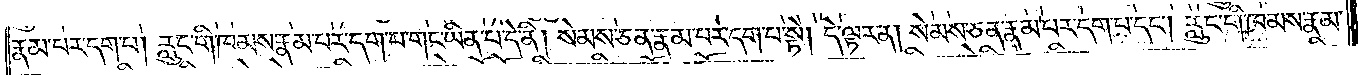རྣམ་པར་དག་པ། རླུང་གི་ཁམས་རྣམ་པར་དག་པ་གང་ཡིན་པ་དེ་ནི། སེམས་ཅན་རྣམ་པར་དག་པ་སྟེ། དེ་ལྟར་ན། སེམས་ཅན་རྣམ་པར་དག་པ་དང༌། རླུང་གི་ཁམས་རྣམ་
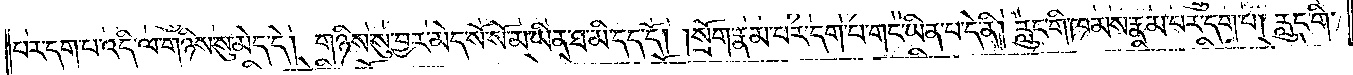པར་དག་པ་འདི་ལ་གཉིས་སུ་མེད་དེ། གཉིས་སུ་བྱར་མེད་སོ་སོ་མ་ཡིན་ཐ་མི་དད་དོ། །སྲོག་རྣམ་པར་དག་པ་གང་ཡིན་པ་དེ་ནི། རླུང་གི་ཁམས་རྣམ་པར་དག་པ། རླུང་གི་
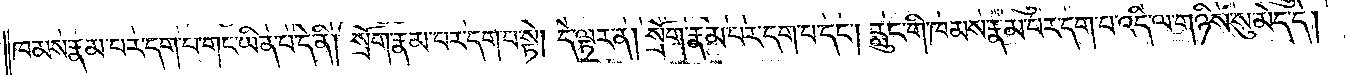ཁམས་རྣམ་པར་དག་པ་གང་ཡིན་པ་དེ་ནི། སྲོག་རྣམ་པར་དག་པ་སྟེ། དེ་ལྟར་ན། སྲོག་རྣམ་པར་དག་པ་དང༌། རླུང་གི་ཁམས་རྣམ་པར་དག་པ་འདི་ལ་གཉིས་སུ་མེད་དེ།
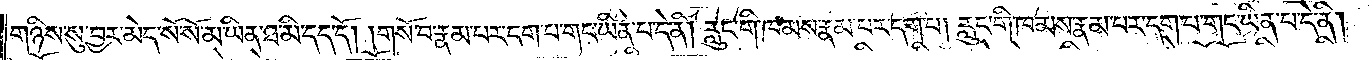གཉིས་སུ་བྱར་མེད་སོ་སོ་མ་ཡིན་ཐ་མི་དད་དོ། །གསོ་བ་རྣམ་པར་དག་པ་གང་ཡིན་པ་དེ་ནི། རླུང་གི་ཁམས་རྣམ་པར་དག་པ། རླུང་གི་ཁམས་རྣམ་པར་དག་པ་གང་ཡིན་པ་དེ་ནི།
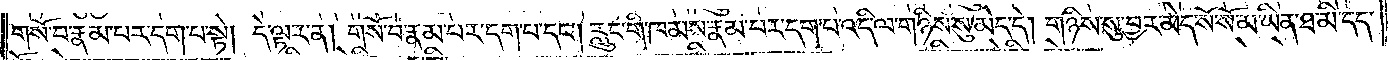གསོ་བ་རྣམ་པར་དག་པ་སྟེ། དེ་ལྟར་ན། གསོ་བ་རྣམ་པར་དག་པ་དང༌། རླུང་གི་ཁམས་རྣམ་པར་དག་པ་འདི་ལ་གཉིས་སུ་མེད་དེ། གཉིས་སུ་བྱར་མེད་སོ་སོ་མ་ཡིན་ཐ་མི་དད་
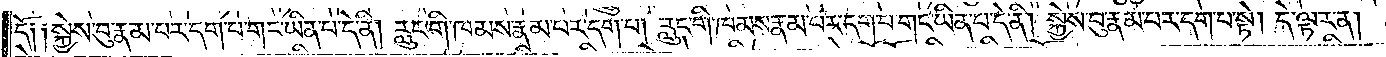དོ༑ ༑སྐྱེས་བུ་རྣམ་པར་དག་པ་གང་ཡིན་པ་དེ་ནི། རླུང་གི་ཁམས་རྣམ་པར་དག་པ། རླུང་གི་ཁམས་རྣམ་པར་དག་པ་གང་ཡིན་པ་དེ་ནི། སྐྱེས་བུ་རྣམ་པར་དག་པ་སྟེ། དེ་ལྟར་ན།
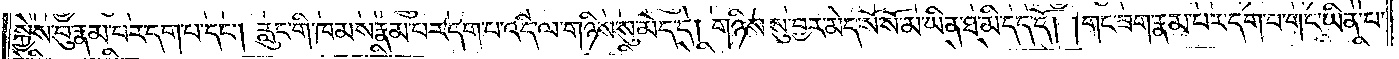སྐྱེས་བུ་རྣམ་པར་དག་པ་དང༌། རླུང་གི་ཁམས་རྣམ་པར་དག་པ་འདི་ལ་གཉིས་སུ་མེད་དེ། གཉིས་སུ་བྱར་མེད་སོ་སོ་མ་ཡིན་ཐ་མི་དད་དོ། །གང་ཟག་རྣམ་པར་དག་པ་གང་ཡིན་པ་
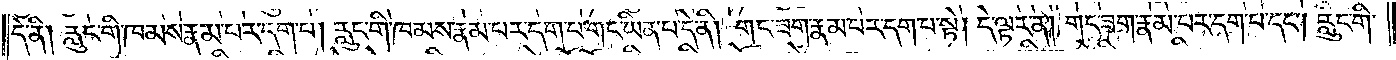དེ་ནི། རླུང་གི་ཁམས་རྣམ་པར་དག་པ། རླུང་གི་ཁམས་རྣམ་པར་དག་པ་གང་ཡིན་པ་དེ་ནི། གང་ཟག་རྣམ་པར་དག་པ་སྟེ། དེ་ལྟར་ན། གང་ཟག་རྣམ་པར་དག་པ་དང༌། རླུང་གི་
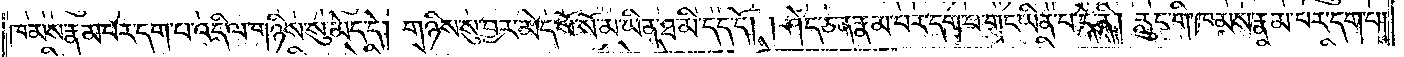ཁམས་རྣམ་པར་དག་པ་འདི་ལ་གཉིས་སུ་མེད་དེ། གཉིས་སུ་བྱར་མེད་སོ་སོ་མ་ཡིན་ཐ་མི་དད་དོ། །ཤེད་ཅན་རྣམ་པར་དག་པ་གང་ཡིན་པ་དེ་ནི། རླུང་གི་ཁམས་རྣམ་པར་དག་པ།
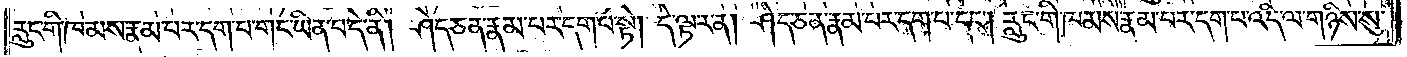རླུང་གི་ཁམས་རྣམ་པར་དག་པ་གང་ཡིན་པ་དེ་ནི། ཤེད་ཅན་རྣམ་པར་དག་པ་སྟེ། དེ་ལྟར་ན། ཤེད་ཅན་རྣམ་པར་དག་པ་དང༌། རླུང་གི་ཁམས་རྣམ་པར་དག་པ་འདི་ལ་གཉིས་སུ་
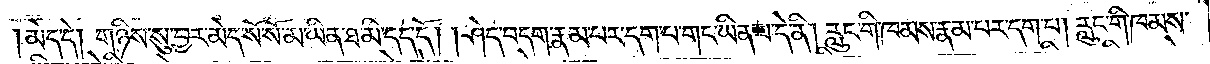མེད་དེ་གཉིས་སུ་བྱར་མེད་སོ་སོ་མ་ཡིན་ཐ་མི་དད་དོ། །ཤེད་བདག་རྣམ་པར་དག་པ་གང་ཡིན་པ་དེ་ནི། རླུང་གི་ཁམས་རྣམ་པར་དག་པ། རླུང་གི་ཁམས་
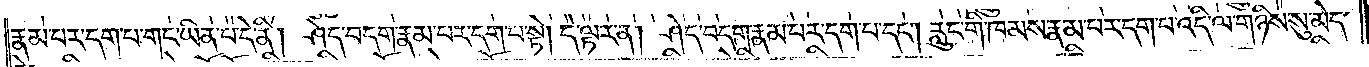རྣམ་པར་དག་པ་གང་ཡིན་པ་དེ་ནི། ཤེད་བདག་རྣམ་པར་དག་པ་སྟེ། དེ་ལྟར་ན། ཤེད་བདག་རྣམ་པར་དག་པ་དང༌། རླུང་གི་ཁམས་རྣམ་པར་དག་པ་འདི་ལ་གཉིས་སུ་མེད་
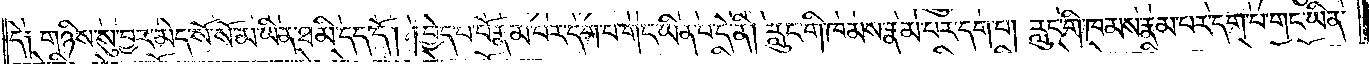དེ། གཉིས་སུ་བྱར་མེད་སོ་སོ་མ་ཡིན་ཐ་མི་དད་དོ། །བྱེད་པ་པོ་རྣམ་པར་དག་པ་གང་ཡིན་པ་དེ་ནི། རླུང་གི་ཁམས་རྣམ་པར་དག་པ། རླུང་གི་ཁམས་རྣམ་པར་དག་པ་གང་ཡིན་
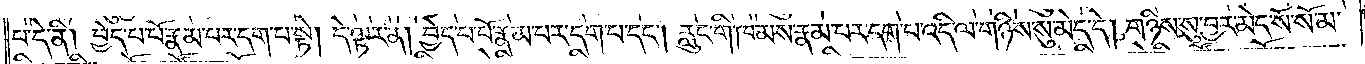པ་དེ་ནི། བྱེད་པ་པོ་རྣམ་པར་དག་པ་སྟེ། དེ་ལྟར་ན། བྱེད་པ་པོ་རྣམ་པར་དག་པ་དང༌། རླུང་གི་ཁམས་རྣམ་པར་དག་པ་འདི་ལ་གཉིས་སུ་མེད་དེ། གཉིས་སུ་བྱར་མེད་སོ་སོ་མ་
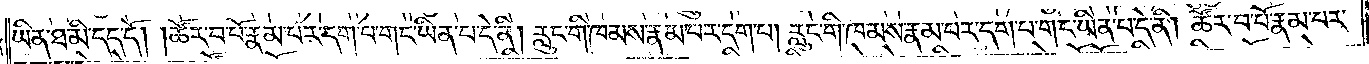ཡིན་ཐ་མི་དད་དོ། །ཚོར་བ་པོ་རྣམ་པར་དག་པ་གང་ཡིན་པ་དེ་ནི། རླུང་གི་ཁམས་རྣམ་པར་དག་པ། རླུང་གི་ཁམས་རྣམ་པར་དག་པ་གང་ཡིན་པ་དེ་ནི། ཚོར་བ་པོ་རྣམ་པར་
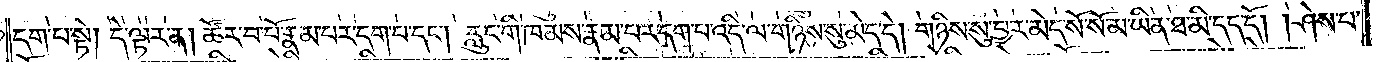དག་པ་སྟེ། དེ་ལྟར་ན། ཚོར་བ་པོ་རྣམ་པར་དག་པ་དང༌། རླུང་གི་ཁམས་རྣམ་པར་དག་པ་འདི་ལ་གཉིས་སུ་མེད་དེ། གཉིས་སུ་བྱར་མེད་སོ་སོ་མ་ཡིན་ཐ་མི་དད་དོ། །ཤེས་པ་
